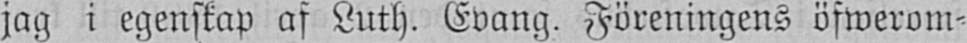jag i egenskap af Luth. Evang. Föreningens öfwerom-
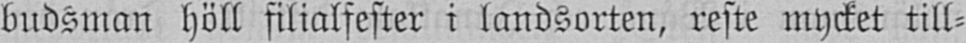budsman höll filialfester i landsorten, reste mycket till-
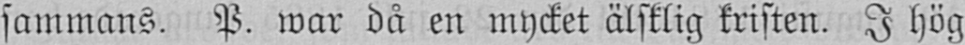sammans. P. war då en mycket älsklig kristen. I hög
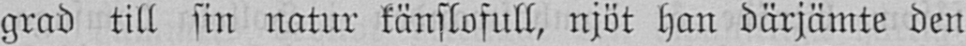grad till sin natur känslofull, njöt han därjämte den
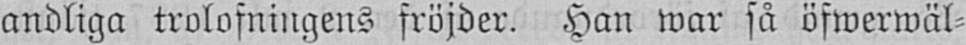andliga trolofningens fröjder. Han war så öfwerwäl-
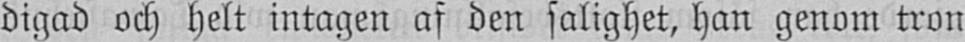digad och helt intagen af den salighet, han genom tron
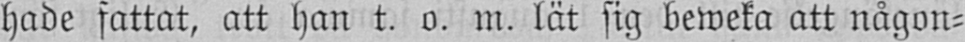hade fattat, att han t. o. m. lät sig beweka att någon-
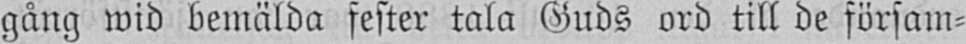gång wid bemälda fester tala Guds ord till de försam-
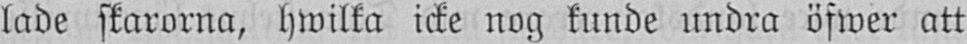lade skarorna, hwilka icke nog kunde undra öfwer att
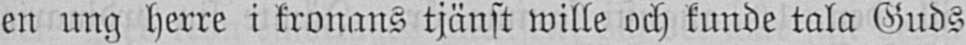en ung herre i kronans tjänst wille och kunde tala Guds
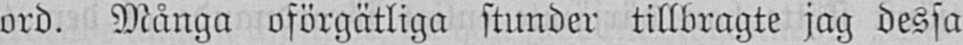ord. Många oförgätliga stunder tillbragte jag dessa
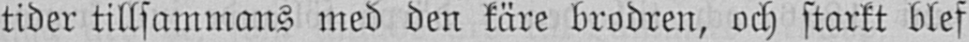tider tillsammans med den käre brödren, och starkt blef
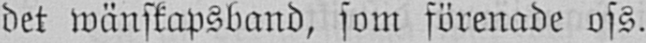det wänskapsband, som förenade oss.
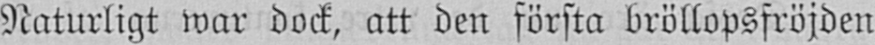Naturligt war dock, att den första bröllopsfröjden
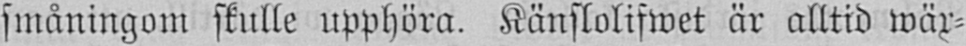småningom skulle upphöra. Känslolifwet är alltid wäx-
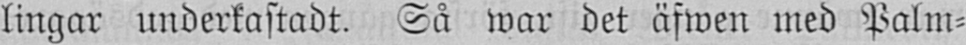lingar underkastadt. Så war det äfwen med Palm-
